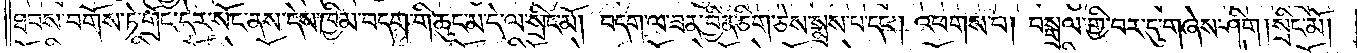ཐབས་བགོས་ཏེ་གྲོང་དེར་སོང་ནས་དེས་ཁྱིམ་བདག་གི་ཆུང་མ་དེ་ལ་སྲིང་མོ། བདག་ལ་ཟན་བྱིན་ཅིག་ཅེས་སྨྲས་པ་དང༌། འཕགས་པ། བསྒྲལ་གྱི་བར་དུ་གཞེས་ཤིག །སྲིང་མོ།
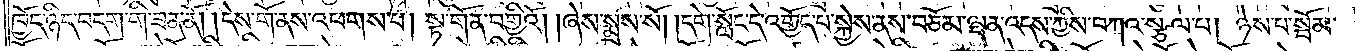ཁྱོད་ཉིད་བདག་གི་ཟན་ནོ། །དེས་གོ་ནས་འཕགས་པ། སྟ་གོན་བགྱིའོ། །ཞེས་སྨྲས་སོ། །དགེ་སློང་དེ་འགྱོད་པ་སྐྱེས་ནས་བཅོམ་ལྡན་འདས་ཀྱིས་བཀའ་སྩལ་པ། ཉེས་པ་སྦོམ་
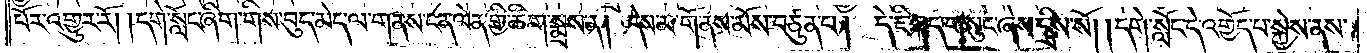པོར་འགྱུར་རོ། །དགེ་སློང་ཞིག་གིས་བུད་མེད་ལ་གནས་ངན་ལེན་གྱི་ཚིག་སྨྲས་ན། དེས་མ་གོ་ནས་མོས་བཙུན་པ། དེ་ཇི་སྐད་གསུང་ཞེས་དྲིས་སོ། །དགེ་སློང་དེ་འགྱོད་པ་སྐྱེས་ནས་
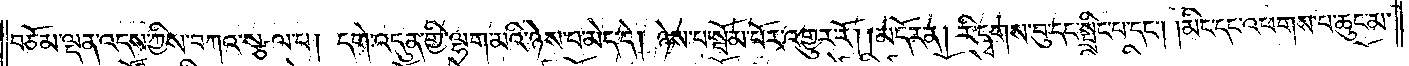བཅོམ་ལྡན་འདས་ཀྱིས་བཀའ་སྩལ་པ། དགེ་འདུན་གྱི་ལྷག་མའི་ཉེས་པ་མེད་དེ། ཉེས་པ་སྦོམ་པོར་འགྱུར་རོ། །མདོར་ན། རི་དྭགས་བུ་དང་སྤྲིང་པ་དང༌། མིང་དང་འཕགས་པ་ཆུང་མ་
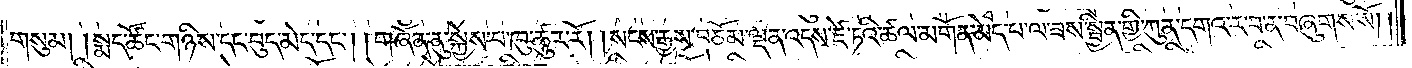གསུམ། །སྨད་ཚོང་གཉིས་དང་བུད་མེད་དང༌། །གཞོན་ནུ་སྐྱེས་པ་ཁུ་ཚུར་རོ། །སངས་རྒྱས་བཅོམ་ལྡན་འདས་ཛེ་ཏའི་ཚལ་མགོན་མེད་པ་ལ་ཟས་སྦྱིན་གྱི་ཀུན་དགའ་ར་བ་ན་བཞུགས་སོ། །
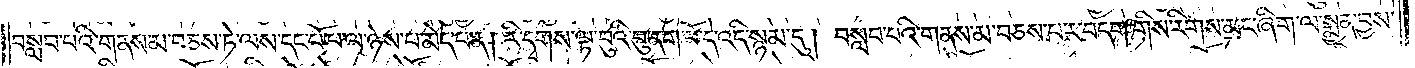བསླབ་པའི་གནས་མ་བཅས་ཏེ་ལས་དང་པོ་པ་ལ་ཉེས་པ་མེད་པ་ན། རི་དྭགས་ལྟ་བུའི་བུ་ནག་པོ་དེ་འདི་སྙམ་དུ། བསླབ་པའི་གནས་མ་བཅས་པར་བདག་གིས་རིགས་མང་ཞིག་ལ་སྨྱན་བྱས་
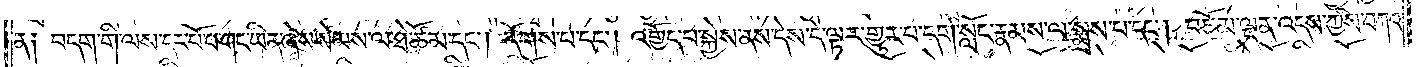ན༑ བདག་གི་ལས་དང་པོ་པ་གང་ཡིན་ཞེས་སེམས་ལ་ཐེ་ཚོམ་དང༌། དོགས་པ་དང༌། འགྱོད་པ་སྐྱེས་ནས་དེས་དེ་ལྟར་གྱུར་པ་དགེ་སློང་རྣམས་ལ་སྨྲས་པ་དང༌། བཅོམ་ལྡན་འདས་ཀྱིས་བཀའ་
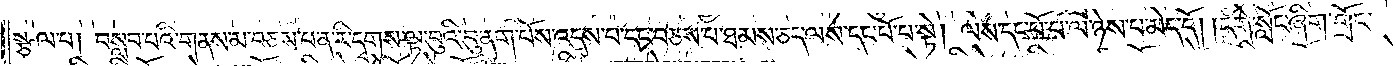སྩལ་པ། བསླབ་པའི་གནས་མ་བཅས་པ་ན་རི་དྭགས་ལྟ་བུའི་བུ་ནག་པོས་འདས་པ་དང་བཅས་པ་ཐམས་ཅད་ལས་དང་པོ་པ་སྟེ། ལས་དང་པོ་པ་ལ་ཉེས་བྱས་མེད་དོ། །དགེ་སློང་ཞིག་གྲོང་
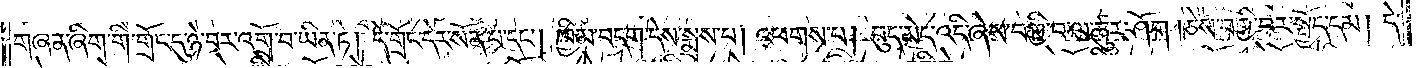གཞན་ཞིག་གི་གྲོང་དུ་ཉེ་བར་འགྲོ་བ་ཡིན་ཏེ། དེ་གྲོང་དེར་སོང་པ་དང༌། ཁྱིམ་བདག་དེས་སྨྲས་པ། འཕགས་པ། བུད་མེད་འདི་ཞེས་བགྱི་བ་ལ་ཚུར་ཤོག །ཅེས་བགྱི་བར་སྤྱོད་དམ། དེ་
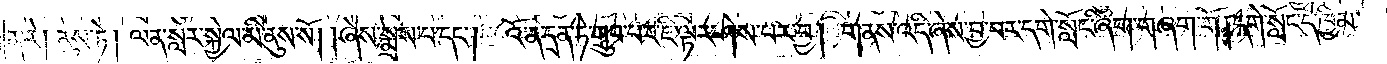ན་རེ། ནུས་ཏེ། ལན་སླར་སྐྱེལ་མི་ནུས་སོ། །ཞེས་སྨྲས་པ་དང༌། འོ་ན་དྲན་ཏེ་གྲུབ་པར་ཇི་ལྟར་ཤེས་པར་བ། གནས་འདི་ཞེས་བྱ་བར་དགེ་སློང་ཞིག་གཞག་གོ །དགེ་སློང་དེ་ཁྱིམ་
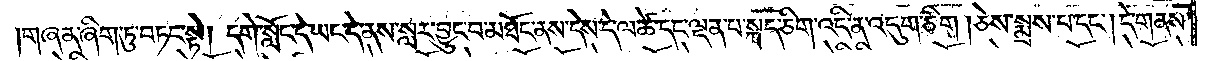གཞན་ཞིག་ཏུ་བཏང་སྟེ། དགེ་སློང་དེ་ཡང་དེ་ནས་སླར་བྱུང་བ་མཐོང་ནས་དེས་དེ་ལ་ཚེ་དང་ལྡན་པ་སྐད་ཅིག་འདི་ན་འདུག་ཅིག །ཅེས་སྨྲས་པ་དང༌། དེ་གནས་
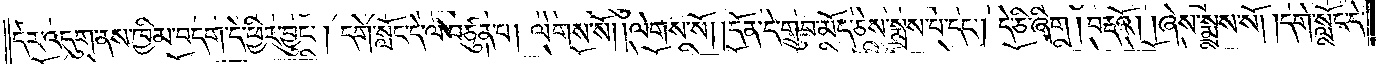དེར་འདུག་ནས་ཁྱིམ་བདག་དེ་ཕྱིར་བྱུང༌། དགེ་སློང་དེ་ལ་བཙུན་པ། ལེགས་སོ། །ལེགས་སོ། །དོན་དེ་གྲུབ་མོད་ཅེས་སྨྲས་པ་དང༌། དེ་ཅི་ཞིག། བརྡའོ། །ཞེས་སྨྲས་སོ། །དགེ་སློང་དེ་
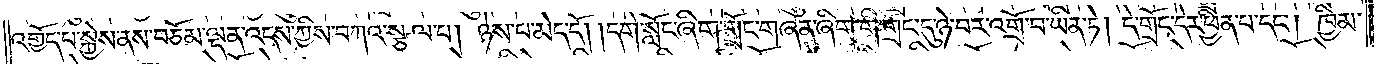འགྱོད་པ་སྐྱེས་ནས་བཅོམ་ལྡན་འདས་ཀྱིས་བཀའ་སྩལ་པ། ཉེས་པ་མེད་དོ། །དགེ་སློང་ཞིག་གྲོང་གཞན་ཞིག་གི་གྲོང་དུ་ཉེ་བར་འགྲོ་བ་ཡིན་ཏེ། དེ་གྲོང་དེར་ཕྱིན་པ་དང༌། ཁྱིམ་
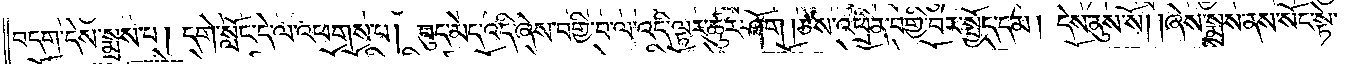བདག་དེས་སྨྲས་པ། དགེ་སློང་དེ་ལ་འཕགས་པ། བུད་མེད་འདི་ཞེས་བགྱི་བ་ལ་འདི་ལྟར་ཚུར་ཤོག །ཅེས་འཕྲིན་བགྱི་བར་སྤྱོད་དམ། དེས་ནུས་སོ། །ཞེས་སྨྲས་ན་སོང་སྟེ་
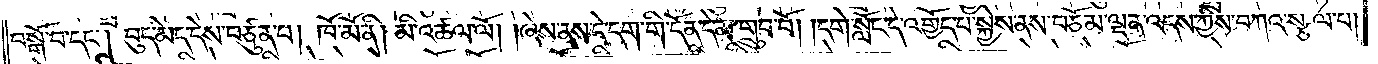བསྒོ་བ་དང༌། བུད་མེད་དེས་བཙུན་པ། ཁོ་མོ་ནི། མི་འཚལ་ལོ། །ཞེས་ནས་དེ་དག་གི་དོན་དེ་མ་གྲུབ་བོ། །དགེ་སློང་དེ་འགྱོད་པ་སྐྱེས་ནས་བཅོམ་ལྡན་འདས་ཀྱིས་བཀའ་སྩལ་པ།
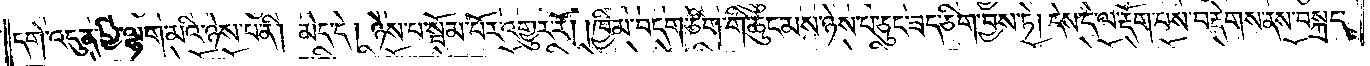དགེ་འདུན་གྱི་ལྷག་མའི་ཉེས་པ་ན། མེད་དེ། ཉེས་པ་སྦོམ་པོར་འགྱུར་རོ། །ཁྱིམ་བདག་ཅིག་གི་ཆུང་མས་ཉེས་པ་ཅུང་ཟད་ཅིག་བྱས་ཏེ། དེས་དེ་ལ་རྡོག་པས་བརྡེགས་ནས་བསྐྲད་
